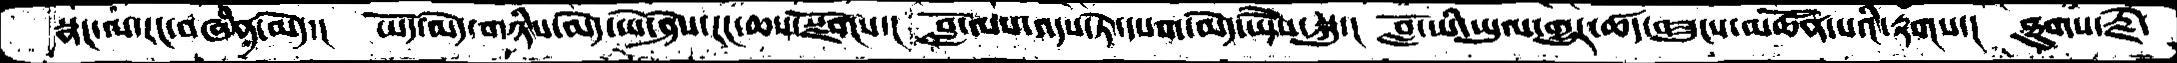སྣང་ལ་རང་བཞིན་མེད་།  ཡོད་མེད་གཉིས་མེད་ཡེ་ཤེས་རང་ཆས་སྫོགས་།  བློ་ལས་འདས་ཏེ་དཔག་མེད་ཡཻས་སྐུ་།  བློ་ཡི་ཡུལ་གྱུར་ཚད་བཟུངས་མཚོན་པའི་རྟགས་།  ཐུགས་རྗེ་
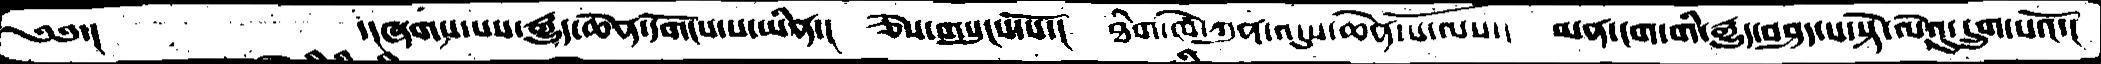༄༅་།    ་།ཞགས་པས་རྒྱུད་ཆེན་དགོངས་པ་ཡིན་།  ཅེས་གསུངས་སོ་།  ཐིག་ལེ་ཀུན་འདུས་ཆེན་པོ་ལས་།  མན་ངག་གི་རྒྱུད་བཤད་པ་སྟེ་ལེའུ་དྲུག་པའོ་།
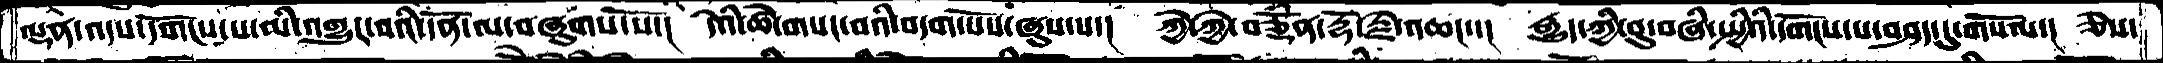ལྡན་འདས་དགོངས་པ་མི་འགྱུར་བའི་དོན་ལ་བཞུགས་སོ་།  དེའི་ཚེ་གསང་བའི་བདག་པོས་ཞུས་པ་།  ཀྱེ་ཀྱེ་བཅྡོཾན་རྡོ་རྗེ་འཆང་་།  རྒྱུད་ཀྱི་བུ་བཞི་སྤྱིའི་དགོངས་པ་བཤད་དུ་་གསོལ་།   ཅེས་
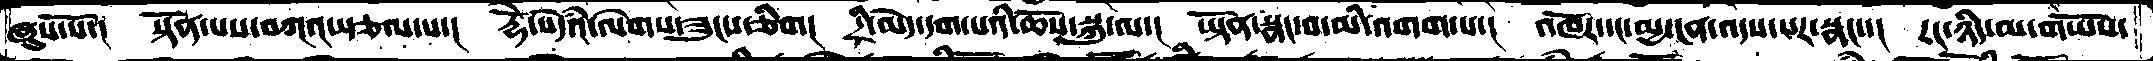ཞུས་སོ་།  སྟོན་པས་བཀའ་སྩལ་པ་།  རྡོེ་སེདཾའ་ལེགས་ཟུངས་ཅིག།  དྲི་མེད་དམ་པའི་ཆོས་སྐུ་ལ་།  ཡྟོན་སྣང་བ་མི་འགག་པ་།  འཁོར་དང་མྱ་ངན་འདས་པར་སྣང་་།  རངང་ཉིད་མ་གཡོས་
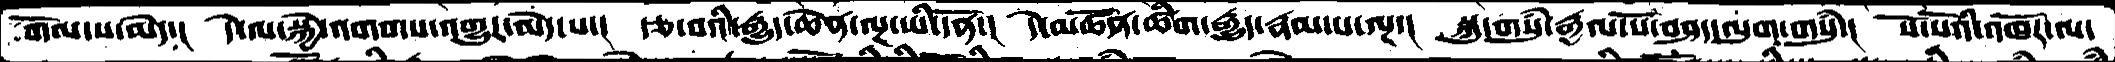གོལ་ས་མེད་།  དེ་ལ་སྐྱེ་འགགས་འགྱུར་མེད་པ་།  རྩ་བའི་རྒྱུད་ཆེན་ལྔ་ཡི་དོན་།  དེ་མཚོན་ཚིག་རྒྱུད་རྣམ་པ་ལྔ་།  སྐུ་གསུཾ་རྒྱལ་པོ་བཤད་ལུག་གསུཾ་།  སོ་སོའི་འཁོར་ལ་
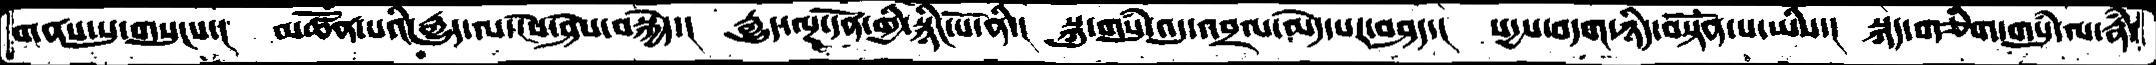གནས་སུ་གསུངས་།  མཚོན་པའི་རྒྱུད་ལ་ངེས་ཤེས་བསྐྱེད་།  རྒྱུད་ལྔ་དོན་གྱི་སྙིང་པོ་ནི་།  སྐུ་གསུཾ་འདུ་འབྲལ་མེད་པར་བཤད་།  སདྱས་བདག་ཉིད་བསྟོན་པ་ཡིས་།  སྐད་གཅིག་གསུཾ་ལ་རྣཾ་
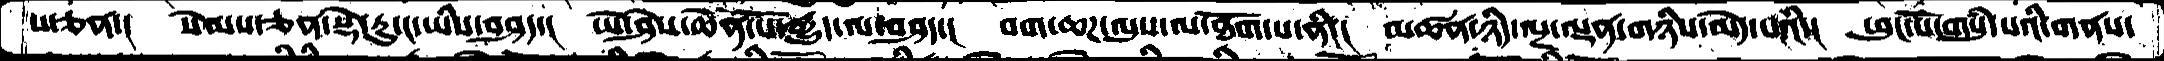པ་ཅན་།  སེམས་ཅན་སྡེ་རུ་ང་ཡིས་བཤད་།  ཡེ་ཤེས་ཆེན་པོ་རྒྱུད་ལ་བཤད་།  བག་ཆཌ་ལུས་ལ་ཐོག་པ་ནི་།  མཚན་ཉིད་ལྔ་ལྡན་གཉིས་མེད་པའི་།  ཕུང་པོ་གསུཾ་པའི་གནས་
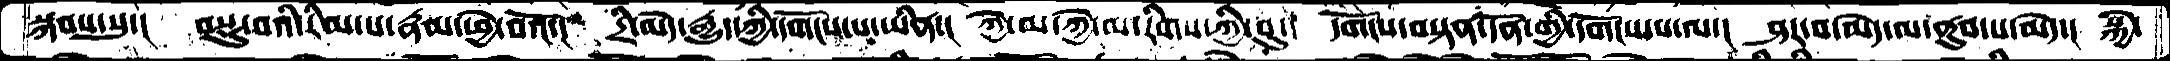སྐབས་སུ་།  བསྡུ་བའི་རིམ་པ་རྣམ་ཕྱེ་བའོ་།  དྲི་མེད་རྒྱུད་ཀྱི་དགོངས་པ་ཡིན་།  ཀྱེ་མ་ཀྱེ་མ་རིགས་ཀྱི་བུ་།  དགོངས་བསྟན་དོན་གྱི་དགོངས་པ་ལ་།  ཤར་བ་མེད་ལ་ནུབ་པ་མེད་།  སྐྱེ་
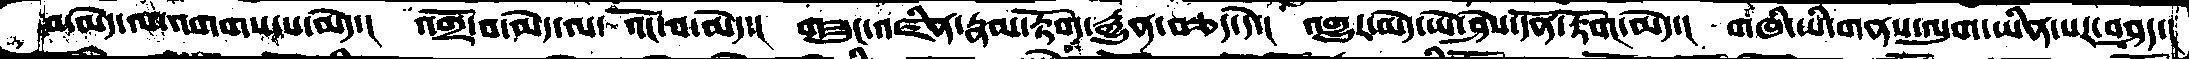བ་མེད་ལ་འགགས་པ་མེད་།  འགྲོ་བ་མེད་ལ་འོང་བ་མེད་།  གཟུང་འཛིན་རྣམ་རྟོག་རྒྱུན་བཅད་དེ་།  འགྱུར་མེད་ཡེ་ཤེས་དོན་རྟོག་མེད་།  གཞི་ཡི་གནས་ལུག་ཡིན་པར་བཤད་།
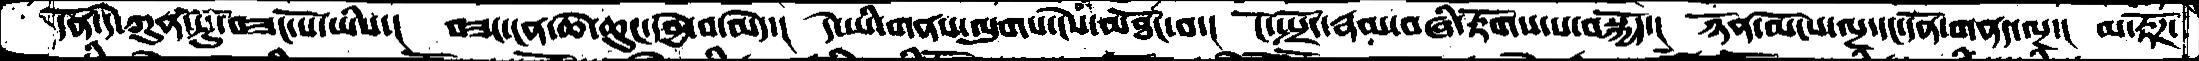དོན་དེ་ཀུན་ཏུ་བཟང་པོ་ཡིས་།  བཟང་ངན་ཆེ་ཆུང་དབྱེ་བ་མེད་།  དེ་ཡི་གནས་ལུགས་ངེས་མཐོང་བ་།   ངོ་སྤྲོད་རྣམ་བཞི་རྟོགས་པ་བསྐྱོད་།  ཉོན་མོངས་ལྔ་དང་དོན་གནད་ལྔ་།  མ་རྟོཌ་
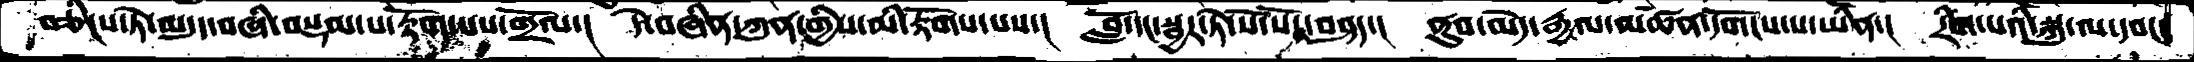བཅིངས་ཏེ་མདུད་བཞི་བསྡམ་པ་རྟོགས་པས་གྲོལ་།  དེ་བཞིན་ཀུན་གྱིས་མི་རྟོགས་པས་།  བློ་དང་སྦྱར་ཏེ་སོ་སོར་བཤད་།  ནུབ་མེད་རྒྱལ་མཚན་དགོངས་པ་ཡིན་།  རིག་པའི་སྐུ་ལ་དབང་
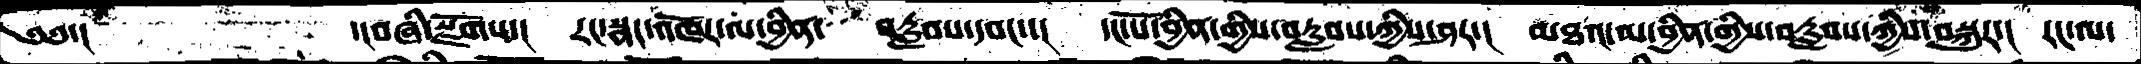༄༅་།      ་།བཞི་སྫོགས་།  རང་སྣང་འཁོར་ལ་བྱིན་  བརླབས་དབང་་།  དང་པོ་བྱིན་གྱིས་བརླབས་ཀྱིས་ཤར་།  མཐའ་མ་བྱིན་གྱིས་བརླབས་ཀྱིས་བསྐུར་།  རང་ལ་
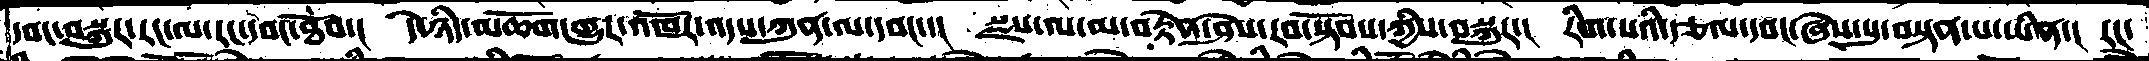དབང་བསྐུར་རང་ལ་རང་དབང་ཐོབ་།   དེ་ཉིད་མཆོག་གྱུར་འཁོར་འདས་ཀུན་ལ་དབང་་།  སྫས་ལ་མ་བརྟེན་ཤེས་རབ་སྟོབས་ཀྱིས་བསྐུར་།  རིག་པའི་རྩལ་དབང་ཤེས་སུ་བསྟན་པ་ཡིན་།  རང་
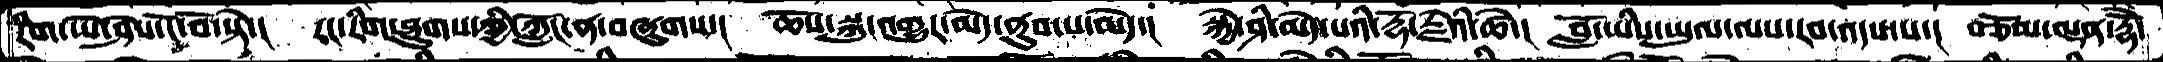རིག་ཡེ་ཤེས་ངོ་བོ་སྟེ་།  རང་རིག་ཐུགས་ཀྱི་ཀློང་ན་བཞུགས་།  ཆོས་སྐུ་འགྱུར་མེད་ནུབ་པ་མེད་།  སྐྱེ་ཤི་མེད་པའི་རྡོ་རྗེའི་ཚེ་།  བློ་ཡིས་ཡུལ་ལས་རབ་འདས་པ་།  བཅོམ་ལྡན་རྡོེ་
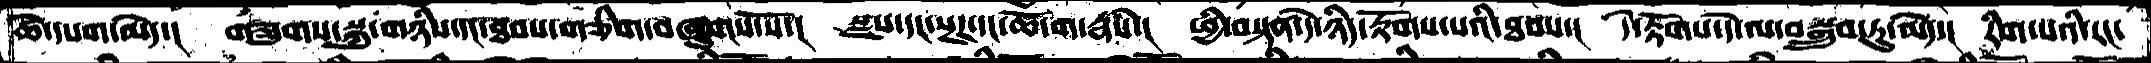ཚེ་དཔག་མེད་།  གཟུགས་སྐུ་གཉིས་དང་ཐབས་གཅིག་བཞུགས་སོ་།  སྫས་དང་སྔཌ་དང་ཆོ་ག་རྣཾས་།  ཕྱི་བསྟན་དེ་ཉིད་རྟོགས་པའི་ཐབས་།  དེ་རྟོགས་དེ་ལ་བསྒྲུབ་ཏུ་མེད་།  རིག་པའི་རང་
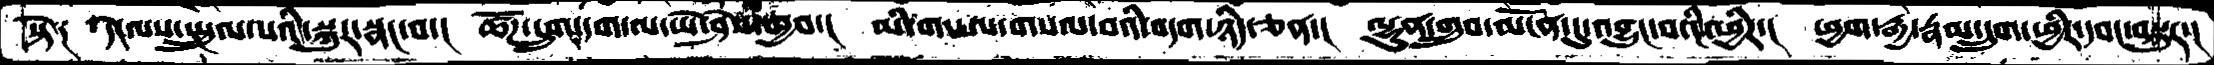སྟེ༑  དེ་ལས་སྤྲུལ་པའི་སྐུར་སྣང་བ་།  ཚོཌ་དྲུག་དག་ལ་ཡེ་ཤེས་ཁྱབ་།  མི་གསལ་གསལ་བའི་བདག་ཉིད་ཅན་།  ལྷུན་གྲུབ་མངོན་དུ་འབྱུང་བའི་ཕྱིར་།  ཕྱག་རྒྱ་རྣམ་དྲུག་ཕྱིར་དབང་བསྐུར་།
